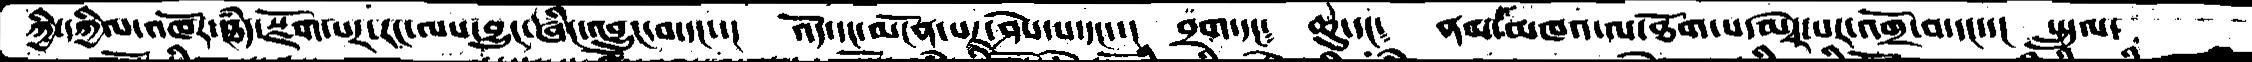ཀྱི་དཀྱིལ་འཁོར་ཐཾད་སྫོགས་པར་རང་ལས་བྱུང་ཞིང་འབྱུང་བ་དང་།  འདོ་དང་མངོན་པར་ཤེས་པ་དང་།  བྲག་དང་། ཆུ་དང་། ནམ་མཁའ་ལ་ཐོག་པ་མེད་པར་འགྲོ་བ་དང་། སྤྲུལ་
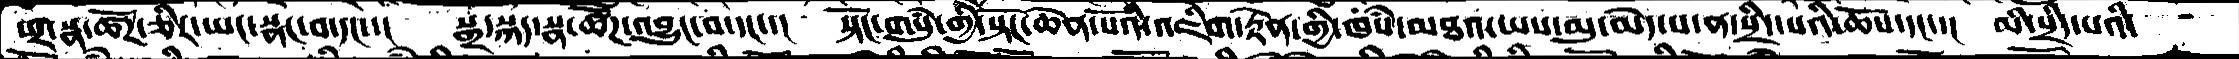ཕྲ་སྣ་ཚོཌ་ཅིར་ཡང་སྣང་བ་དང་།  སྒྲ་སྐད་སྣ་ཚོཌ་འབྱུང་བ་དང་།  སྟོང་གསུཾ་གྱི་སྟོང་ཆེན་པོའི་འཇིག་རྟེན་གྱི་ཁཾས་མཐའ་ཡས་མུ་མེད་པ་ན་སྲིད་པའི་ཆོས་དང་།  མི་སྲིད་པའི་
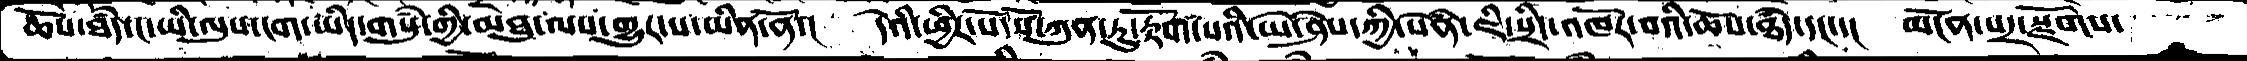ཆོས་ཐཾད་ང་ཡི་ལུས་ངག་ཡིད་གསུཾ་གྱི་མེཐུ་ལས་གྱུར་པ་ཡིན་ནོ་།  དེའི་ཕྱིར་སོ་སོ་ཀུན་ཏུ་རྟོག་པའི་ཡེ་ཤེས་ཀྱི་སེཾན་ཇི་སྲིད་འཁོར་བའི་ཆོས་ཐཾད་དང་།  མངོན་པར་སྫོགས་
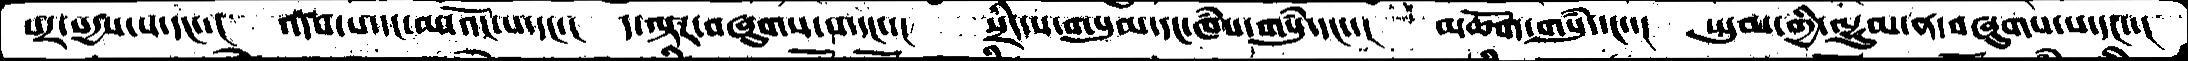པར་སདྱས་པ་དང་།  འདས་པ་དང་མ་འོང་པ་དང་།  ད་ལྟར་བཞུགས་པ་དང་།  སྲིད་པ་གསུམ་དང་ཁཾས་གསུཾ་དང་།  མཆོག་གསུཾ་དང་།  ཡུམ་གྱི་ལྷུམ་ན་བཞུགས་པ་དང་།
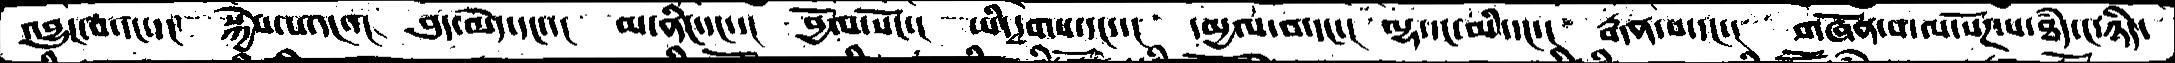འབྱུང་བ་དང་།  སྐྱེས་པ་དང་།  བུད་མེད་དང་།  མ་ནིང་དང་།  བྱོལ་སོང་།  ཡི་དྭགས་དང་།  དམྱལ་བ་དང་།  ལྷ་དང་མི་དང་།  རྒན་པ་དང་།  གཞོན་པ་ལ་སོཌ་པ་ཐཾད་ང་ཉིད་
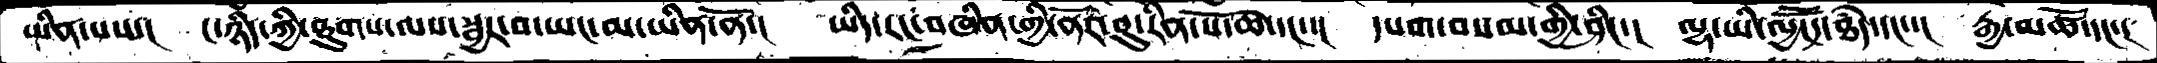ཡིན་པས་།  ང་ཉིད་ཀྱིཐུགས་ལས་སྦྱར་བ་ཡང་མ་ཡིན་ནོ་།  ཡིད་རང་བཞིན་གྱི་ནོར་བུ་རིན་པོ་ཆེ་དང་་།  དཔག་བསམ་གྱི་ཤིང་་།  ལྷ་ཡི་ལྱཽངད་ཐཾད་དང་་།  རྒྱ་མཚོ་དང་།
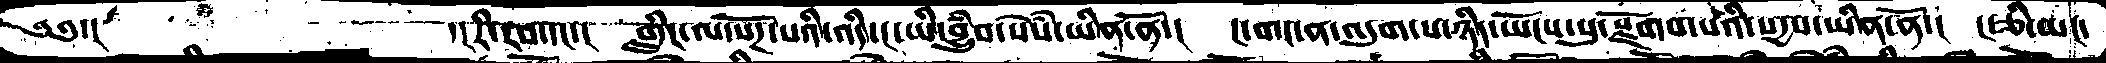༄༅་།         ་།རི་རབ་དང་་།  གླིང་ལ་སོཌ་པའི་འདི་ང་ཡི་བྱུཾབ་སེསཾ་ཡིན་ནོ་།  ང་གང་ན་འདུག་པ་ཉིད་ཡོངས་སུ་སྫོགས་པའི་སདྱས་ཡིན་ནོ་།  ང་ཅི་མང་
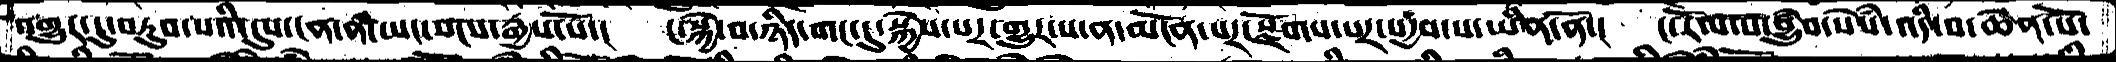འགྱུར་དུ་བཏུབ་པའི་དུས་ངན་ན་ཡང་སངས་རྒྱས་སོ་།  ང་སྐྱེ་བ་ཉིད་གང་དུ་སྐྱེས་པར་གྱུར་པ་ན་མངོན་པར་སྫོགས་པར་སདྱས་པ་ཡིན་ནོ་།  ང་རོལ་པ་བྱུཾབ་སེསཾ་འདི་བ་ཆེན་པོ་
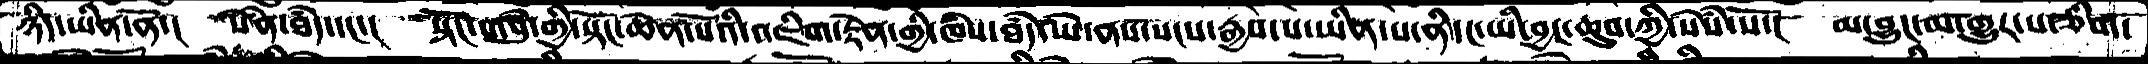ཉིད་ཡིན་ནོ་།  སེནཾ་ཐཾད་དང་།   སྟོང་གསུཾ་གྱི་སྟོང་ཆེན་པོའི་འཇིག་རྟེན་གྱི་ཁཾས་ཐཾད་ཡེ་ནས་སངས་རྒྱས་པ་ཡིན་པ་ནི་ང་ཡི་བྱང་ཆུབ་ཀྱི་སེསཾ་སོ་།  མབྱུང་མ་གྱུར་པ་ཅིག་
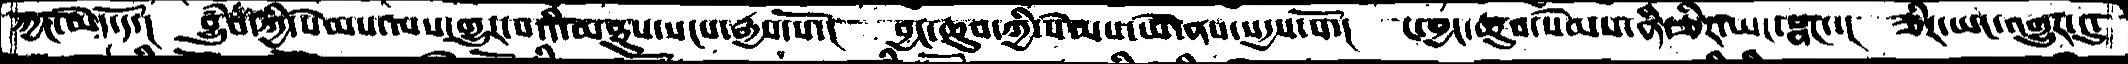ཀྱང་མེད་དོ་།  བྱུཾབ་ཀྱི་སེམས་ལས་གྱུར་པའི་མཐུས་སངས་རྒྱས་སོ་།  བྱང་ཆུབ་གྱི་སེམས་ཡེ་ནས་སདྱས་སོ་།  ང་བྱང་ཆུབ་སེམས་ནི་ཅིར་ཡང་སྣང་་།  ཅིར་ཡང་འགྱུར་དུ་
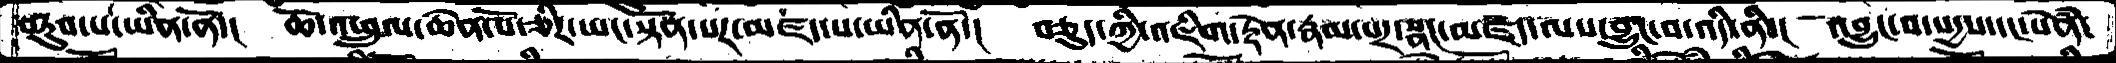བཏུབ་པ་ཡིན་ནོ་།  ཆོ་འཕྲུལ་ཆེན་པོ་ཅིར་ཡང་སྟོན་པར་མཛད་པ་ཡིན་ནོ་།  བཅུད་ཀྱི་འཇིག་རྟེན་རྣམ་པར་སྣང་མཛད་ལས་བྱུང་བ་འདི་ནི་།  འབྱུང་བ་སདྱས་དང་སེཾན་
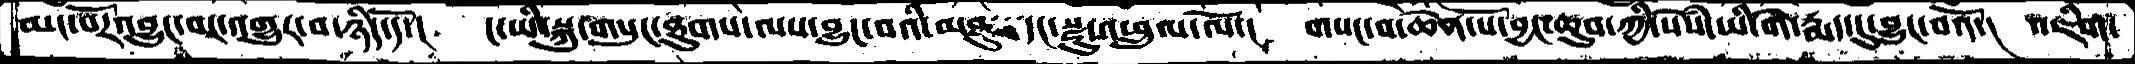མང་པོར་འབྱུང་བར་འགྱུར་བ་ཉིད་དོ་།  ང་ཡི་སྐུ་གསུང་ཐུགས་ལས་བྱུང་བའི་མཐུ་དང་སྫུ་འཕྲུལ་ལོ་།  གསང་བ་ཆེན་པོ་བྱང་ཆུབ་ཀྱི་སེཾས་ཡི་གེ་རྨད་དུ་བྱུང་བའོ་།  འཇིག་
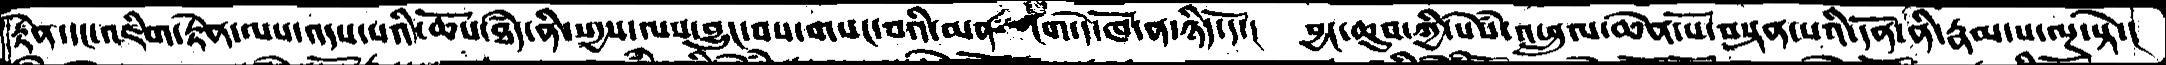རྟེན་དང་འཇིག་རྟེན་ལས་འདས་པའི་ཆོས་ཐཾད་ནི་སདྱས་ལས་བྱུང་བས་གསང་བའི་མན་ངག་དེ་ཁོ་ན་ཉིད་དོ་།  བྱང་ཆུབ་ཀྱི་སེཾས་འཕྲུལ་ཆེན་པོ་བསྟན་པའི་དོན་ནི་རྣམ་པ་ལྔ་སྟེ་།
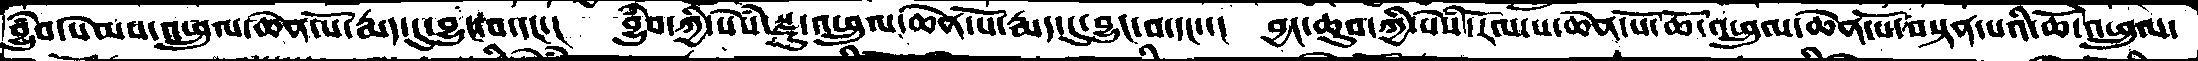བྱུཾབ་སེམས་འཕྲུལ་ཆེན་པོ་རྨད་དུ་བྱུང་བ་དང་།  བྱུཾབ་ཀྱི་སེཾས་སྫུ་འཕྲུལ་ཆེན་པོ་རྨད་དུ་བྱུང་བ་དང་་།  བྱང་ཆུབ་ཀྱི་སེཾས་རོལ་པ་ཆེན་པོ་ཆོ་འཕྲུལ་ཆེན་པོ་བསྟན་པའི་ཆོ་འཕྲུལ་
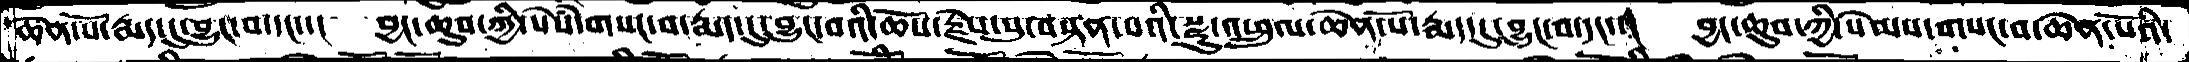ཆེན་པོ་རྨད་དུ་བྱུང་བ་དང་་།  བྱང་ཆུབ་ཀྱི་སེཾས་གསང་བ་རྨད་དུ་བྱུང་བའི་ཆོས་རྗེས་སུ་བསྟན་པའི་སྫུ་འཕྲུལ་ཆེན་པོ་རྨད་དུ་བྱུང་བ་དང་་།  བྱང་ཆུབ་ཀྱི་སེམས་གསང་བ་ཆེན་པོའི་
